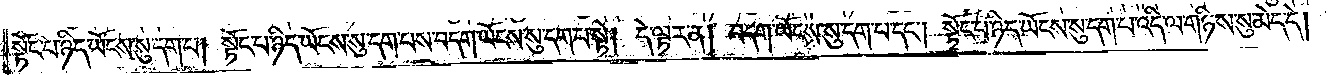སྟོང་པ་ཉིད་ཡོངས་སུ་དག་པ། སྟོང་པ་ཉིད་ཡོངས་སུ་དག་པས་བདག་ཡོངས་སུ་དག་པ་སྟེ། དེ་ལྟར་ན། བདག་ཡོངས་སུ་དག་པ་དང༌། སྟོང་པ་ཉིད་ཡོངས་སུ་དག་པ་འདི་ལ་གཉིས་སུ་མེད་དེ།
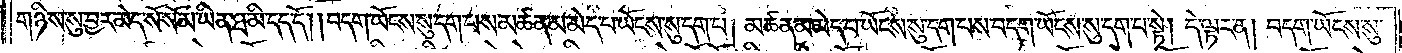གཉིས་སུ་བྱར་མེད་སོ་སོ་མ་ཡིན་ཐ་མི་དད་དོ། །བདག་ཡོངས་སུ་དག་པས་མཚན་མ་མེད་པ་ཡོངས་སུ་དག་པ། མཚན་མ་མེད་པ་ཡོངས་སུ་དག་པས་བདག་ཡོངས་སུ་དག་པ་སྟེ། དེ་ལྟར་ན། བདག་ཡོངས་སུ་
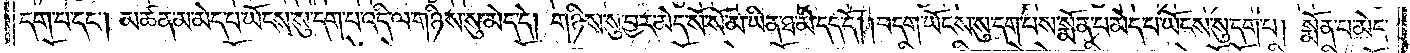དག་པ་དང༌། མཚན་མ་མེད་པ་ཡོངས་སུ་དག་པ་འདི་ལ་གཉིས་སུ་མེད་དེ། གཉིས་སུ་བྱར་མེད་སོ་སོ་མ་ཡིན་ཐ་མི་དད་དོ། །བདག་ཡོངས་སུ་དག་པས་སྨོན་པ་མེད་པ་ཡོངས་སུ་དག་པ། སྨོན་པ་མེད་
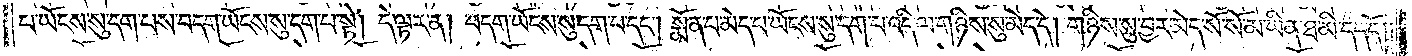པ་ཡོངས་སུ་དག་པས་བདག་ཡོངས་སུ་དག་པ་སྟེ། དེ་ལྟར་ན། བདག་ཡོངས་སུ་དག་པ་དང༌། སྨོན་པ་མེད་པ་ཡོངས་སུ་དག་པ་འདི་ལ་གཉིས་སུ་མེད་དེ། གཉིས་སུ་བྱར་མེད་སོ་སོ་མ་ཡིན་ཐ་མི་དད་དོ། །
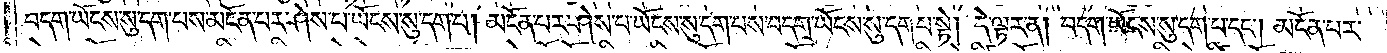བདག་ཡོངས་སུ་དག་པས་མངོན་པར་ཤེས་པ་ཡོངས་སུ་དག་པ། མངོན་པར་ཤེས་པ་ཡོངས་སུ་དག་པས་བདག་ཡོངས་སུ་དག་པ་སྟེ། དེ་ལྟར་ན། བདག་ཡོངས་སུ་དག་པ་དང༌། མངོན་པར་
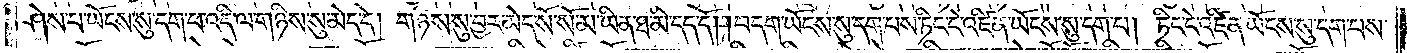ཤེས་པ་ཡོངས་སུ་དག་པ་འདི་ལ་གཉིས་སུ་མེད་དེ། གཉིས་སུ་བྱར་མེད་སོ་སོ་མ་ཡིན་ཐ་མི་དད་དོ། །བདག་ཡོངས་སུ་དག་པས་ཏིང་ངེ་འཛིན་ཡོངས་སུ་དག་པ། ཏིང་ངེ་འཛིན་ཡོངས་སུ་དག་པས་
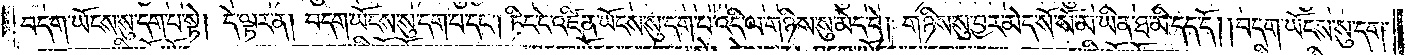བདག་ཡོངས་སུ་དག་པ་སྟེ། དེ་ལྟར་ན། བདག་ཡོངས་སུ་དག་པ་དང༌། ཏིང་ངེ་འཛིན་ཡོངས་སུ་དག་པ་འདི་ལ་གཉིས་སུ་མེད་དེ། གཉིས་སུ་བྱར་མེད་སོ་སོ་མ་ཡིན་ཐ་མི་དད་དོ། །བདག་ཡོངས་སུ་དག་
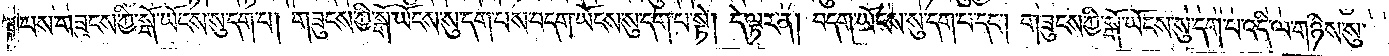པས་གཟུངས་ཀྱི་སྒོ་ཡོངས་སུ་དག་པ། གཟུངས་ཀྱི་སྒོ་ཡོངས་སུ་དག་པས་བདག་ཡོངས་སུ་དག་པ་སྟེ། དེ་ལྟར་ན། བདག་ཡོངས་སུ་དག་པ་དང༌། གཟུངས་ཀྱི་སྒོ་ཡོངས་སུ་དག་པ་འདི་ལ་གཉིས་སུ་
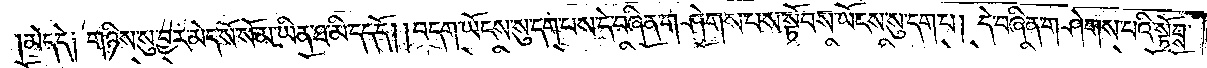མེད་དེ། གཉིས་སུ་བྱར་མེད་སོ་སོ་མ་ཡིན་ཐ་མི་དད་དོ། །བདག་ཡོངས་སུ་དག་པས་དེ་བཞིན་གཤེགས་པའི་སྟོབས་ཡོངས་སུ་དག་པ། དེ་བཞིན་གཤེགས་པའི་སྟོབས་
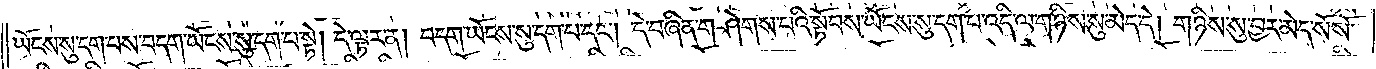ཡོངས་སུ་དག་པས་བདག་ཡོངས་སུ་དག་པ་སྟེ། དེ་ལྟར་ན། བདག་ཡོངས་སུ་དག་པ་དང༌། དེ་བཞིན་གཤེགས་པའི་སྟོབས་ཡོངས་སུ་དག་པ་འདི་ལ་གཉིས་སུ་མེད་དེ། གཉིས་སུ་བྱར་མེད་སོ་སོ་
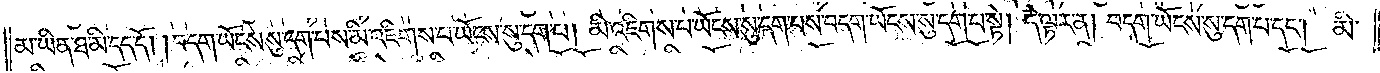མ་ཡིན་ཐ་མི་དད་དོ། །བདག་ཡོངས་སུ་དག་པས་མི་འཇིགས་པ་ཡོངས་སུ་དག་པ། མི་འཇིགས་པ་ཡོངས་སུ་དག་པས་བདག་ཡོངས་སུ་དག་པ་སྟེ། དེ་ལྟར་ན། བདག་ཡོངས་སུ་དག་པ་དང༌། མི་
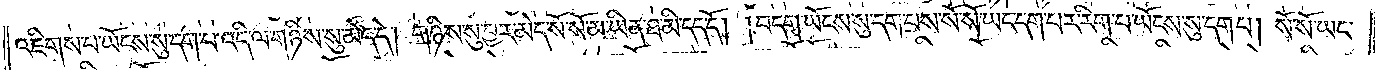འཇིགས་པ་ཡོངས་སུ་དག་པ་འདི་ལ་གཉིས་སུ་མེད་དེ། གཉིས་སུ་བྱར་མེད་སོ་སོ་མ་ཡིན་ཐ་མི་དད་དོ། །བདག་ཡོངས་སུ་དག་པས་སོ་སོ་ཡང་དག་པར་རིག་པ་ཡོངས་སུ་དག་པ། སོ་སོ་ཡང་
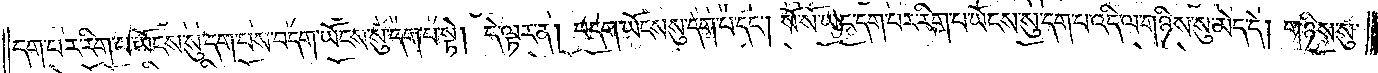དག་པར་རིག་པ་ཡོངས་སུ་དག་པས་བདག་ཡོངས་སུ་དག་པ་སྟེ། དེ་ལྟར་ན། བདག་ཡོངས་སུ་དག་པ་དང༌། སོ་སོ་ཡང་དག་པར་རིག་པ་ཡོངས་སུ་དག་པ་འདི་ལ་གཉིས་སུ་མེད་དེ། གཉིས་སུ་
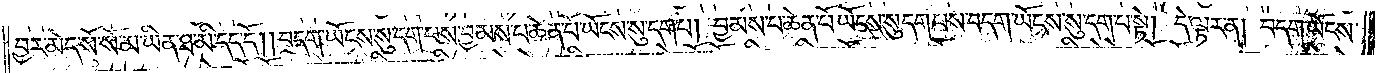བྱར་མེད་སོ་སོ་མ་ཡིན་ཐ་མི་དད་དོ། །བདག་ཡོངས་སུ་དག་པས་བྱམས་པ་ཆེན་པོ་ཡོངས་སུ་དག་པ། བྱམས་པ་ཆེན་པོ་ཡོངས་སུ་དག་པས་བདག་ཡོངས་སུ་དག་པ་སྟེ། དེ་ལྟར་ན། བདག་ཡོངས་
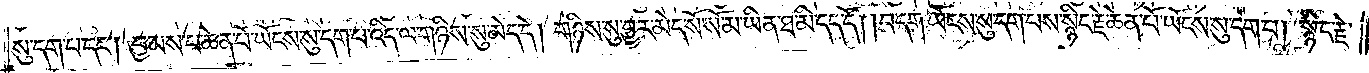སུ་དག་པ་དང༌། བྱམས་པ་ཆེན་པོ་ཡོངས་སུ་དག་པ་འདི་ལ་གཉིས་སུ་མེད་དེ། གཉིས་སུ་བྱར་མེད་སོ་སོ་མ་ཡིན་ཐ་མི་དད་དོ། །བདག་ཡོངས་སུ་དག་པས་སྙིང་རྗེ་ཆེན་པོ་ཡོངས་སུ་དག་པ། སྙིང་རྗེ་
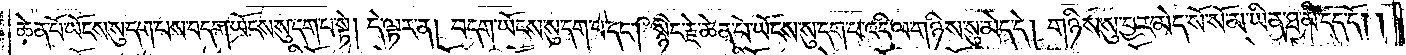ཆེན་པོ་ཡོངས་སུ་དག་པས་བདག་ཡོངས་སུ་དག་པ་སྟེ། དེ་ལྟར་ན། བདག་ཡོངས་སུ་དག་པ་དང༌། སྙིང་རྗེ་ཆེན་པོ་ཡོངས་སུ་དག་པ་འདི་ལ་གཉིས་སུ་མེད་དེ། གཉིས་སུ་བྱར་མེད་སོ་སོ་མ་ཡིན་ཐ་མི་དད་དོ། །
